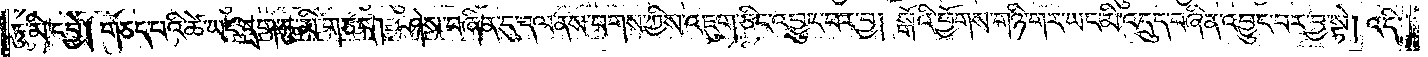ཏུ་མི་དབྱེ། གཅད་པའི་ཚེ་ཡང་དྲག་ཏུ་མི་གཅད། ཤེས་བཞིན་དུ་དལ་ནས་བགས་ཀྱིས་འཇུག་ཅིང་འབྱུང་བར་བྱ། སྒོའི་ཕྱོགས་གཉི་གར་ཡང་མི་འདྲུད་བཞིན་འབྱུང་བར་བྱ་སྟེ། འདི་
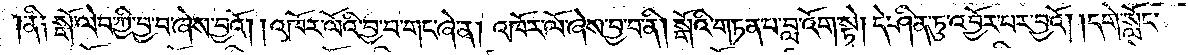ནི༑ སྒོ་ལེབ་ཀྱི་བྱ་བ་ཞེས་བྱའོ། །འཁོར་ལོའི་བྱ་བ་གང་ཞེ་ན། འཁོར་ལོ་ཞེས་བྱ་བ་ནི། སྒོའི་གཏན་པ་བླ་འོག་སྟེ། དེ་ཤིན་ཏུ་འབྱོར་བར་བྱའོ། །དགེ་སློང་
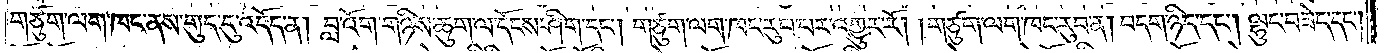གཙུག་ལག་ཁང་ནས་གུད་དུ་འདོད་ན། བླ་འོག་གཉིས་ཆུག་ལ་དོངས་ཤིག་དང༌། གཙུག་ལག་ཁང་རུབ་པར་འགྱུར་རོ། །གཙུག་ལག་ཁང་རུབ་ན། བདག་ཉིད་དང༌། ལྷུང་བཟེད་དང༌།
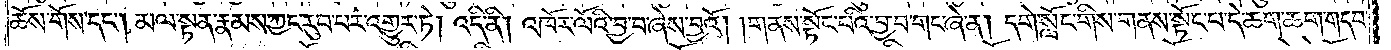ཆོས་གོས་དང༌། མལ་སྟན་རྣམས་ཀྱང་རུབ་པར་འགྱུར་ཏེ། འདི་ནི། འཁོར་ལོའི་བྱ་བ་ཞེས་བྱའོ། །གནས་སྟོང་པའི་བྱ་བ་གང་ཞེ་ན། དགེ་སློང་གིས་གནས་སྟོང་པ་དེ་ཆག་ཆག་གདབ་
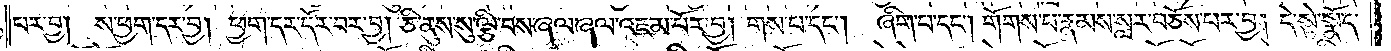པར་བྱ། ས་ཕྱག་དར་བྱ། ཕྱག་དར་དོར་བར་བྱ། ཅི་ནུས་སུ་ལྕི་བས་ཞལ་ཞལ་འཇམ་པོར་བྱ། གས་པ་དང༌། ཞིག་པ་དང༌། གོགས་པ་རྣམས་སླར་བཅོས་པར་བྱ། དེ་སྟེ་སྣོད་
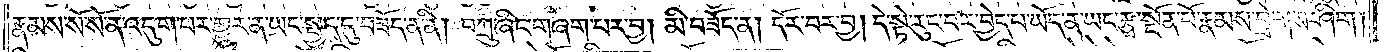རྣམས་སོ་སོ་ན་འདུག་པར་གྱུར་ན་ཡང་སྤྱད་དུ་བཟོད་ན་ནི། བཀྲུ་ཞིང་གཞག་པར་བྱ། མི་བཟོད་ན། དོར་བར་བྱ། དེ་སྟེ་རུང་བར་བྱེད་པ་ཡོད་ན་ཡང་རྩྭ་སྔོན་པོ་རྣམས་བྲེགས་ཤིག།
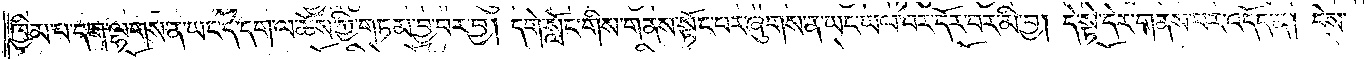ཁྱིམ་པ་དག་ལྷགས་ན་ཡང་དེ་དག་ལ་ཆོས་ཀྱི་གཏམ་བྱ་བར་བྱ། དགེ་སློང་གིས་གནས་སྟོང་པར་ཞུགས་ན་ཡང་ཡལ་བར་དོར་བར་མི་བྱ། དེ་སྟེ་དེར་གནས་པར་འདོད་ན། དེས་
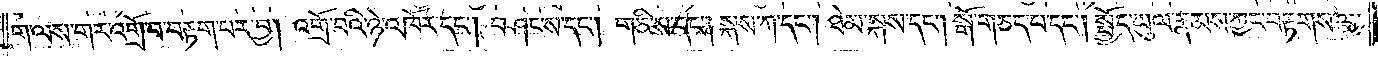ག་ལས་གར་འགྲོ་བ་བརྟག་པར་བྱ། འགྲོ་བའི་ཉེ་འཁོར་དང༌། བཤང་ས་དང༌། གཅི་ས་དང༌། སྐས་ཀ་དང༌། ཐེམ་སྐས་དང༌། སྒོ་གཅད་པ་དང༌། སྤྱོད་ཡུལ་རྣམས་ཀྱང་བརྟགས་ལ་
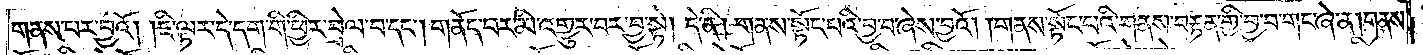གནས་པར་བྱའོ། །ཇི་ལྟར་དེ་དག་གི་ཕྱིར་བྲེལ་བ་དང༌། གནོད་པར་མི་འགྱུར་བར་བྱ་སྟེ། དེ་ནི། གནས་སྟོང་པའི་བྱ་བ་ཞེས་བྱའོ། །གནས་སྟོང་པའི་གནས་བརྟན་གྱི་བྱ་བ་གང་ཞེ་ན། གནས་
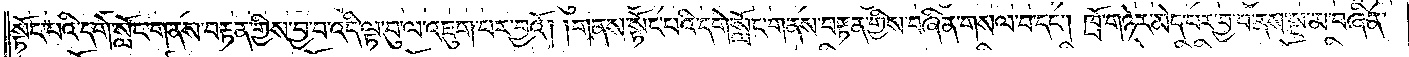སྟོང་པའི་དགེ་སློང་གནས་བརྟན་གྱིས་བྱ་བ་འདི་ལྟ་བུ་ལ་འཇུག་པར་བྱའོ། །གནས་སྟོང་པའི་དགེ་སློང་གནས་བརྟན་གྱིས་བཞིན་གསལ་བ་དང༌། ཁྲོ་གཉེར་མེད་པར་བྱ་བ་ནས་སྔ་མ་བཞིན་
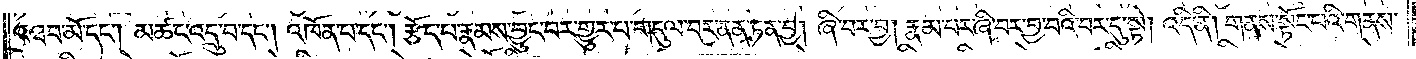འཐབ་མོ་དང༌། མཚང་འདྲུ་བ་དང༌། འཁོན་པ་དང༌། རྩོད་པ་རྣམས་བྱུང་བར་གྱུར་པ་གདུལ་བར་ནན་ཏན་བྱ། ཞི་བར་བྱ། རྣམ་པར་ཞི་བར་བྱ་བའི་བར་དུ་སྟེ། འདི་ནི། གནས་སྟོང་པའི་གནས་
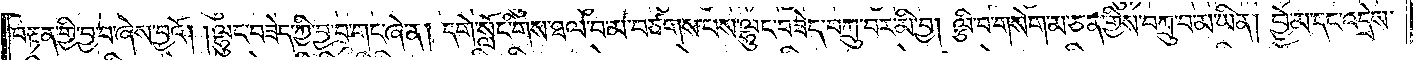བརྟན་གྱི་བྱ་བ་ཞེས་བྱའོ། །ལྷུང་བཟེད་ཀྱི་བྱ་བ་གང་ཞེ་ན། དགེ་སློང་གིས་ཐལ་བ་མ་བཙགས་པས་ལྷུང་བཟེད་བཀྲུ་བར་མི་བྱ། ལྕི་བ་གསེག་མ་ཅན་གྱིས་བཀྲུ་བ་མ་ཡིན། བྱེ་མ་དང༌། འདྲེས་
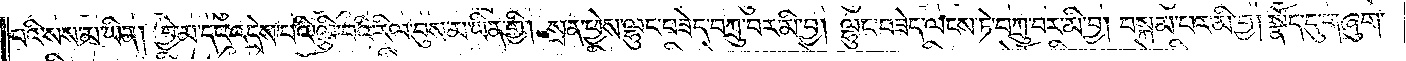པའི་སས་མ་ཡིན། བྱེ་མ་དང་འདྲེས་པའི་ལྕི་བའི་རིལ་བུས་མ་ཡིན་གྱི། སྲན་ཕྱེས་ལྷུང་བཟེད་བཀྲུ་བར་མི་བྱ། ལྷུང་བཟེད་ལངས་ཏེ་བཀྲུ་བར་མི་བྱ། བསྐམ་པར་མི་བྱ། སྣོད་དུ་གཞུག་
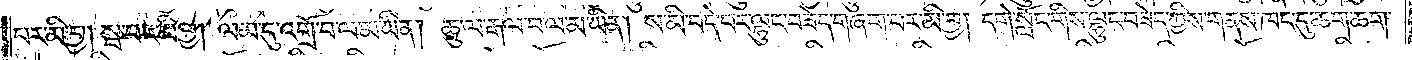པར་མི་བྱ། སྦ་བར་མི་བྱ། ལམ་དུ་འགྲོ་བ་ལ་མ་ཡིན། ཆུ་ལ་རྒལ་བ་ལ་མ་ཡིན། ས་མི་བདེ་བར་ལྷུང་བཟེད་གཞག་པར་མི་བྱ། དགེ་སློང་གིས་ལྷུང་བཟེད་ཀྱིས་གནས་ཁང་དུ་ཆག་ཆག་
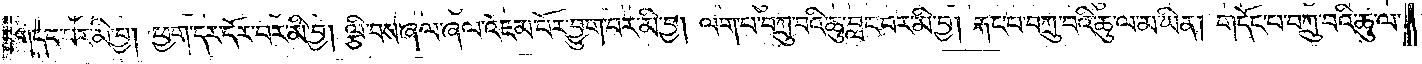གདབ་པར་མི་བྱ། ཕྱག་དར་དོར་བར་མི་བྱ། ལྕི་བས་ཞལ་ཞལ་འཇམ་པོར་བྱུག་པར་མི་བྱ། ལག་པ་བཀྲུ་བའི་ཆུ་བླང་བར་མི་བྱ། རྐང་པ་བཀྲུ་བའི་ཆུ་ལ་མ་ཡིན། གདོང་པ་བཀྲུ་བའི་ཆུ་ལ་
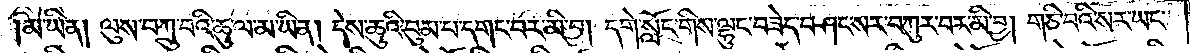མ་ཡིན། ལུས་བཀྲུ་བའི་ཆུ་ལ་མ་ཡིན། དེས་ཆུའི་བུམ་པ་དགང་བར་མི་བྱ། དགེ་སློང་གིས་ལྷུང་བཟེད་བཤང་སར་བཀུར་བར་མི་བྱ། གཅི་བའི་སར་ཡང་
